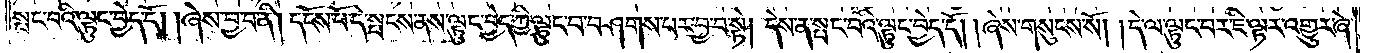སྤང་བའི་ལྟུང་བྱེད་དོ། །ཞེས་བྱ་བ་ནི། དངོས་པོ་དེ་སྤངས་ནས་ལྟུང་བྱེད་ཀྱི་ལྟུང་བ་བཤགས་པར་བྱ་བ་སྟེ། དེས་ན་སྤང་བའི་ལྟུང་བྱེད་དོ། །ཞེས་གསུངས་སོ། །དེ་ལ་ལྟུང་བར་ཇི་ལྟར་འགྱུར་ཞེ་
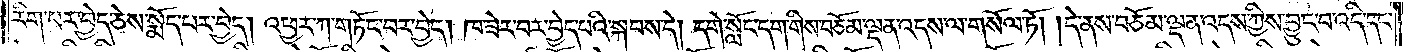རིག་པར་བྱེད་ཅེས་སྨོད་པར་བྱེད། འཕྱར་ཀ་གཏོང་བར་བྱེད། ཁ་ཟེར་བར་བྱེད་པའི་སྐབས་དེ། དགེ་སློང་དག་གིས་བཅོམ་ལྡན་འདས་ལ་གསོལ་ཏོ། །དེ་ནས་བཅོམ་ལྡན་འདས་ཀྱིས་བྱུང་བ་འདི་དང་
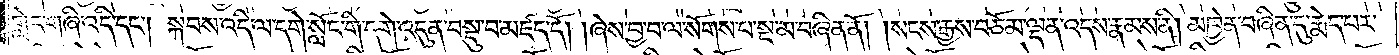གླེང་གཞི་འདི་དང༌། སྐབས་འདི་ལ་དགེ་སློང་གི་དགེ་འདུན་བསྡུ་བ་མཛད་དོ། །ཞེས་བྱ་བ་ལ་སོགས་པ་སྔ་མ་བཞིན་ནོ། །སངས་རྒྱས་བཅོམ་ལྡན་འདས་རྣམས་ནི། མཁྱེན་བཞིན་དུ་རྨེད་པར་
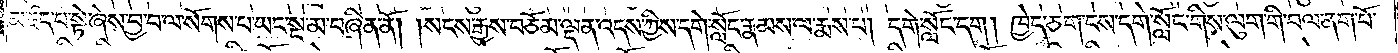མཛད་པ་སྟེ་ཞེས་བྱ་བ་ལ་སོགས་པ་ཡང་སྔ་མ་བཞིན་ནོ། །སངས་རྒྱས་བཅོམ་ལྡན་འདས་ཀྱིས་དགེ་སློང་རྣམས་ལ་རྨས་པ། དགེ་སློང་དག། ཁྱེད་ཅག་ངས་དགེ་སློང་གིས་ལུག་གི་བལ་ནག་པོ་
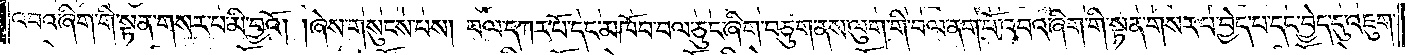འབའ་ཞིག་གི་སྟན་གསར་པ་མི་བྱའོ། །ཞེས་གསུངས་པས། བལ་དཀར་པོ་དང་མཁོ་བ་བལ་ཅུང་ཞིག་བཅུག་ནས་ལུག་གི་བལ་ནག་པོ་འབའ་ཞིག་གི་སྟན་གསར་པ་བྱེད་པ་དང་བྱེད་དུ་འཇུག་
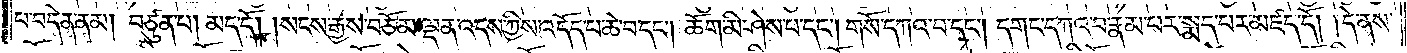པ་བདེན་ནམ། བཙུན་པ། མད་དོ། །སངས་རྒྱས་བཅོམ་ལྡན་འདས་ཀྱིས་འདོད་པ་ཆེ་བ་དང༌། ཆོག་མི་ཤེས་པ་དང༌། གསོ་དཀའ་བ་དང༌། དགང་དཀའ་བ་རྣམ་པར་སྨད་པར་མཛད་དོ། །དེ་ནས་
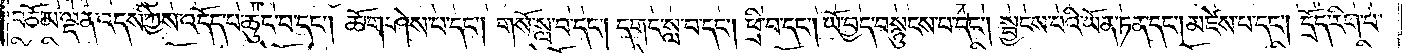བཅོམ་ལྡན་འདས་ཀྱིས་འདོད་པ་ཆུང་བ་དང༌། ཆོག་ཤེས་པ་དང༌། གསོ་སླ་བ་དང༌། དགང་སླ་བ་དང༌། ཕྲི་བ་དང༌། ཡོ་བྱད་བསྙུངས་པ་དང༌། སྦྱངས་པའི་ཡོན་ཏན་དང༌། མཛེས་པ་དང༌། དྲོད་རིག་པ་
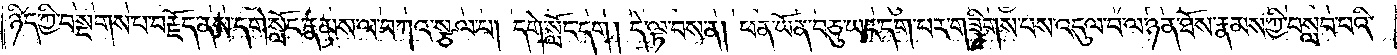ཉིད་ཀྱི་བསྔགས་པ་བརྗོད་ནས་དགེ་སློང་རྣམས་ལ་བཀའ་སྩལ་པ། དགེ་སློང་དག། དེ་ལྟ་བས་ན། ཕན་ཡོན་བཅུ་ཡང་དག་པར་གཟིགས་པས་འདུལ་བ་ལ་ཉན་ཐོས་རྣམས་ཀྱི་བསླབ་པའི་
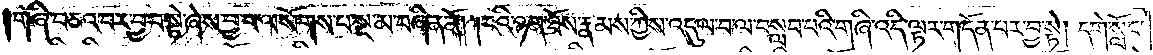གཞི་བཅའ་བར་བྱ་བ་སྟེ་ཞེས་བྱ་བ་ལ་སོགས་པ་སྔ་མ་བཞིན་ནོ། །ངའི་ཉན་ཐོས་རྣམས་ཀྱིས་འདུལ་བ་ལ་བསླབ་པའི་གཞི་འདི་ལྟར་གདོན་པར་བྱ་སྟེ། དགེ་སློང་
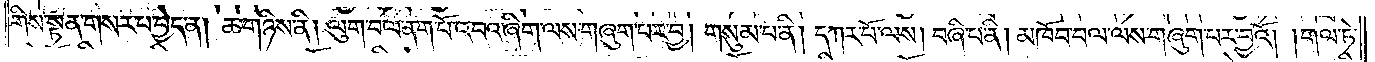གིས་སྟན་གསར་པ་བྱེད་ན། ཆ་གཉིས་ནི། ལུག་བལ་ནག་པོ་འབའ་ཞིག་ལས་གཞུག་པར་བྱ། གསུམ་པ་ནི། དཀར་པོ་ལས། བཞི་པ་ནི། མཁོ་བ་བལ་ལས་གཞུག་པར་བྱའོ། །གལ་ཏེ་
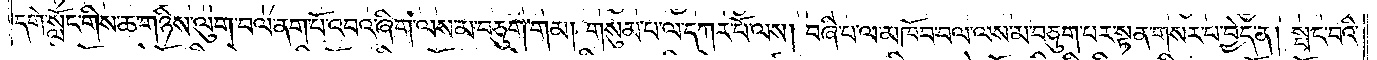དགེ་སློང་གིས་ཆ་གཉིས་ལུག་བལ་ནག་པོ་འབའ་ཞིག་ལས་མ་བཅུག་གམ། གསུམ་པ་ལ་དཀར་པོ་ལས། བཞི་པ་ལ་མཁོ་བ་བལ་ལས་མ་བཅུག་པར་སྟན་གསར་པ་བྱེད་ན། སྤང་བའི་
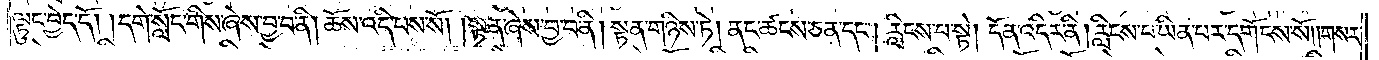ལྟུང་བྱེད་དོ། །དགེ་སློང་གིས་ཞེས་བྱ་བ་ནི། ཆོས་འདི་པས་སོ། །སྟན་ཞེས་བྱ་བ་ནི། །སྟན་གཉིས་ཏེ། ནང་ཚངས་ཅན་དང༌། རླིངས་པ་སྟེ། དོན་འདིར་ནི། རླིངས་པ་ཡིན་པར་དགོངས་སོ། །གསར་
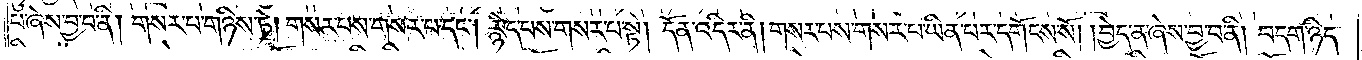པ་ཞེས་བྱ་བ་ནི། གསར་པ་གཉིས་ཏེ། གསར་པས་གསར་པ་དང༌། རྙེད་པས་གསར་པ་སྟེ། དོན་འདིར་ནི། གསར་པས་གསར་པ་ཡིན་པར་དགོངས་སོ། །བྱེད་ན་ཞེས་བྱ་བ་ནི། བདག་ཉིད་
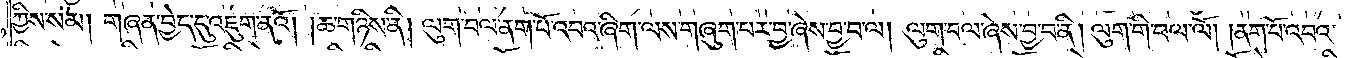ཀྱིས་སམ། གཞན་བྱེད་དུ་འཇུག་ནའོ། །ཆ་གཉིས་ནི། ལུག་བལ་ནག་པོ་འབའ་ཞིག་ལས་གཞུག་པར་བྱ་ཞེས་བྱ་བ་ལ། ལུག་བལ་ཞེས་བྱ་བ་ནི། ལུག་གི་བལ་ལོ། །ནག་པོ་འབའ་
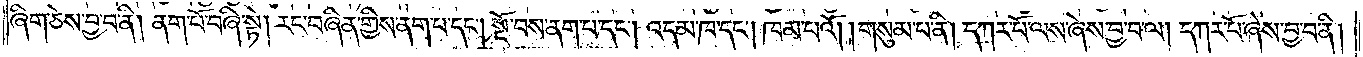ཞིག་ཅེས་བྱ་བ་ནི། ནག་པོ་བཞི་སྟེ། རང་བཞིན་གྱིས་ནག་པ་དང༌། སྔོ་བས་ནག་པ་དང༌། འདམ་ཁ་དང༌། ཁམ་པའོ། །གསུམ་པ་ནི། དཀར་པོ་ལས་ཞེས་བྱ་བ་ལ། དཀར་པོ་ཞེས་བྱ་བ་ནི།
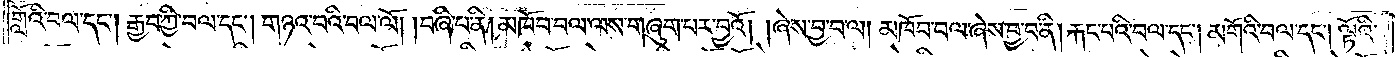གློའི་བལ་དང༌། རྒྱབ་ཀྱི་བལ་དང༌། གཉའ་བའི་བལ་ལོ། །བཞི་པ་ནི། མཁོ་བ་བལ་ལས་གཞུག་པར་བྱའོ། །ཞེས་བྱ་བ་ལ། མཁོ་བ་བལ་ཞེས་བྱ་བ་ནི། རྐང་པའི་བལ་དང༌། མགོའི་བལ་དང༌། ལྟོའི་
